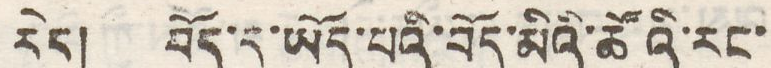རེད། བོད་དུ་ཡོད་པའི་བོད་མིའི་ཚོའི་རང་
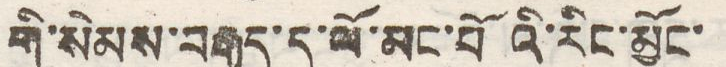གི་སེམས་བརྒྱུད་དུ་ལོ་མང་པོའི་རུང་མྱོང་
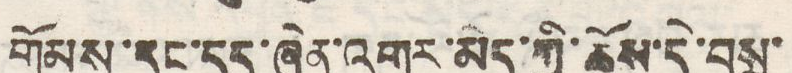གོམས་དང་དད་ཞེན་འགྱུར་མེད་ཀྱི་ཆོས་དེ་བསྲ་
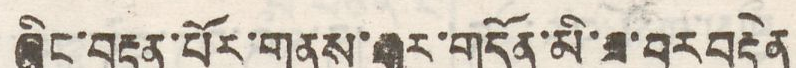ཞིང་བརྟན་པོར་གནས་རྒྱུར་གདོན་མི་ཟ་བར་བརྟེན་
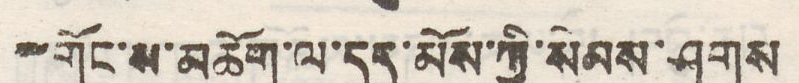༸གོང་ས་མཆོག་ལ་དད་མོས་ཀྱིས་སེམས་ཤུགས
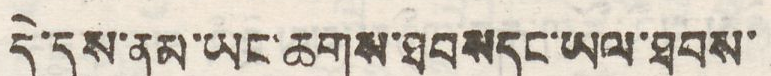དེ་དུས་ནམ་ཡང་ཆགས་ཐབས དང་ཡལ་ཐབས་
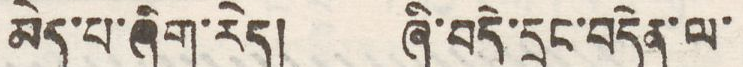མེད་པ་ཞིག་རེད། ཞི་བདེ་དྲང་བདེན་ལ་
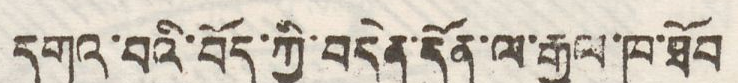དགའ་བའི་བོད་ཀྱི་བདེན་དོན་ལ་རྒྱལ་ཁ་ཐོབ
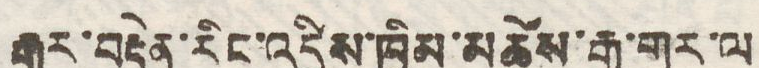རྒྱུར་བརྟེན་རིང་འདྲིས་ཁྱིམ་མཚེས་རྒྱ་གར་ལ
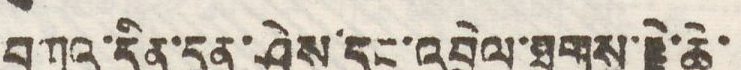བཀའ་དྲིན་དྲན་ཤེས་དནག་འབྲེལ་ཐུགས་རྗེ་ཆེ་
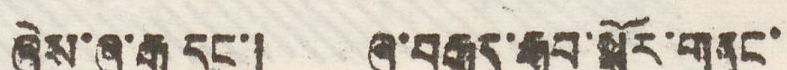ཞེས་ཞུ་རྒྱུ དང་། ཞུ་བརྒྱུད་རྒྱབ་སྐྱོར་གནང་
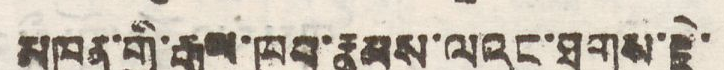མཁན་གྱི་རྒྱལ་ཁབ་རྣམས་ལའང་ཐུགས་རྗེ་
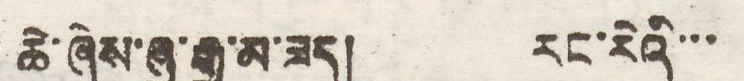ཆེ་ཞེས་ཞུ་རྒྱུ་མ་ཟད། རང་རེའི་་་
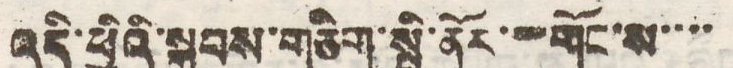འདི་ཕྱིའི་སྐྱབས་གཅིག་སྤྱི་ནོར་༸གོང་ས་་་་
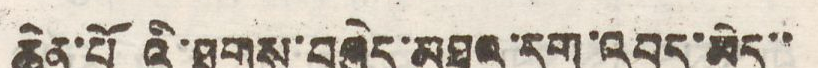ཆེན་པོའི་ཐུགས་བཞེད་མཐའ་དག་འབད་མེད་་
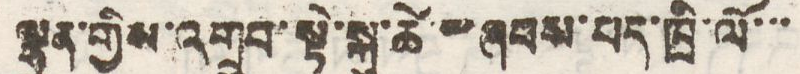ལྷུན་གྱིས་འགྲུབ་སྟེ་སྐུ་ཚེ་༸ཞབས་པད་ཁྲི་ལོ་་་
